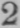2
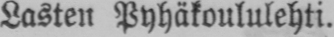Lasten Pyhäkoululehti.
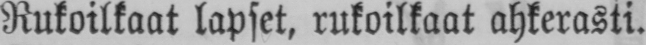Rukoilkaat lapset, rukoilkaat ahkerasti.
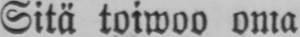Sitä toiwoo oma
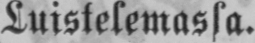Luistelemassa.
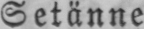Setänne.
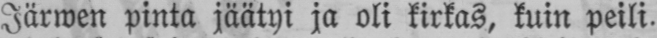Järwen pinta jäätyi ja oli kirkas, kuin peili.
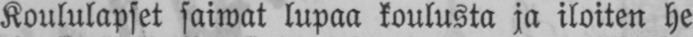Koululapset saiwat lupaa koulusta ja iloiten he
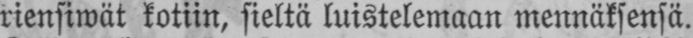riensiwät kotiin, sieltä luistelemaan mennäksensä.
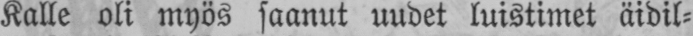Kalle oli myös saanut uudet luistimet äidil-
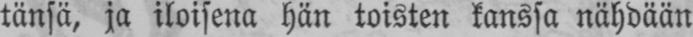tänsä, ja iloisena hän toisten kanssa nähdään
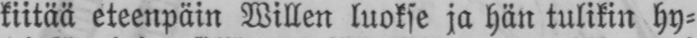kiitää eteenpäin Willen luokse ja hän tulikin hy-
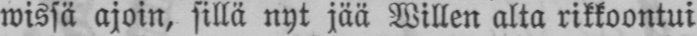wissä ajoin, sillä nyt jää Willen alta rikkoontui
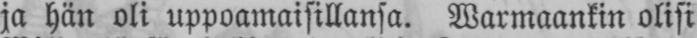ja hän oli uppoamaisillansa. Varmaankin olisi
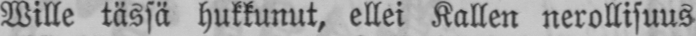Wille tässä hukkunut, ellei Kallen nerollisuus
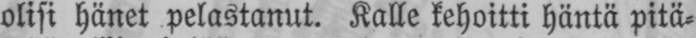olisi hänet pelastanut. Kalle kehoitti häntä pitä-
